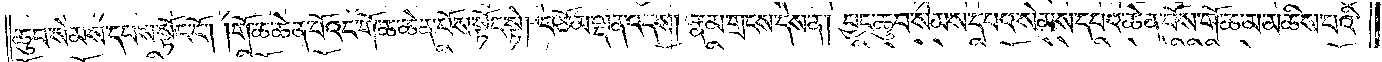ཆུབ་སེམས་དཔས་སྟོང་ངོ༌། །གོ་ཆ་ཆེན་པོའང་གོ་ཆ་ཆེན་པོས་སྟོང་སྟེ། བཅོམ་ལྡན་འདས། རྣམ་གྲངས་དེས་ན། བྱང་ཆུབ་སེམས་དཔའ་སེམས་དཔའ་ཆེན་པོས་གོ་ཆ་མ་མཆིས་པའི་
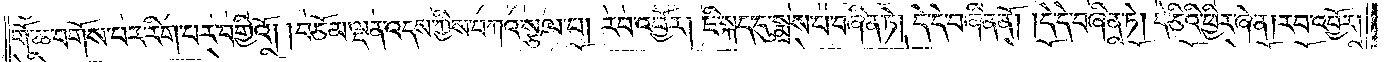གོ་ཆ་བགོས་པར་རིག་པར་བགྱིའོ། །བཅོམ་ལྡན་འདས་ཀྱིས་བཀའ་སྩལ་པ། རབ་འབྱོར། ཇི་སྐད་དུ་སྨས་པ་བཞིན་ཏེ། དེ་དེ་བཞིན་ནོ། །དེ་དེ་བཞིན་ཏེ། དེ་ཅིའི་ཕྱིར་ཞེ་ན། རབ་འབྱོར།
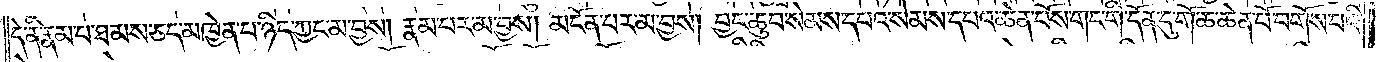དེ་ནི་རྣམ་པ་ཐམས་ཅད་མཁྱེན་པ་ཉིད་ཀྱང་མ་བྱས། རྣམ་པར་མ་བྱས། མངོན་པར་མ་བྱས། བྱང་ཆུབ་སེམས་དཔའ་སེམས་དཔའ་ཆེན་པོས་གང་གི་དོན་དུ་གོ་ཆ་ཆེན་པོ་བགོས་པའི་
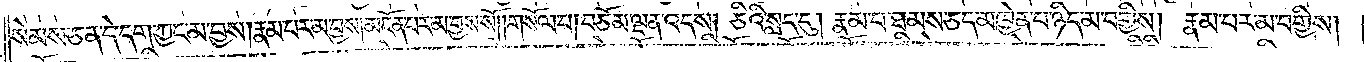སེམས་ཅན་དེ་དག་ཀྱང་མ་བྱས། རྣམ་པར་མ་བྱས་མངོན་པར་མ་བྱས་སོ། །གསོལ་པ། བཅོམ་ལྡན་འདས། ཅིའི་སླད་དུ། རྣམ་པ་ཐམས་ཅད་མཁྱེན་པ་ཉིད་མ་བགྱིས། རྣམ་པར་མ་བགྱིས།
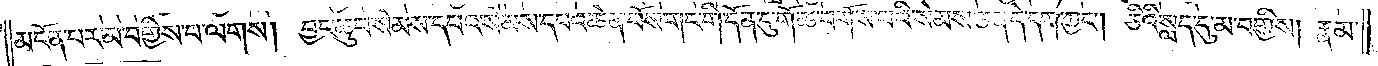མངོན་པར་མ་བགྱིས་པ་ལགས། བྱང་ཆུབ་སེམས་དཔའ་སེམས་དཔའ་ཆེན་པོས་གང་གི་དོན་དུ་གོ་ཆ་བགོས་པའི་སེམས་ཅན་དེ་དག་ཀྱང༌། ཅིའི་སླད་དུ་མ་བགྱིས། རྣམ་
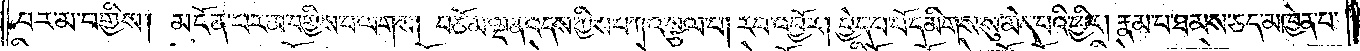པར་མ་བགྱིས། མངོན་པར་མ་བགྱིས་པ་ལགས། བཅོམ་ལྡན་འདས་ཀྱིས་བཀའ་སྩལ་པ། རབ་འབྱོར། བྱེད་པ་དམིགས་སུ་མེད་པའི་ཕྱིར། རྣམ་པ་ཐམས་ཅད་མཁྱེན་པ་
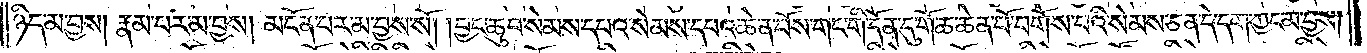ཉིད་མ་བྱས། རྣམ་པར་མ་བྱས། མངོན་པར་མ་བྱས་སོ། །བྱང་ཆུབ་སེམས་དཔའ་སེམས་དཔའ་ཆེན་པོས་གང་གི་དོན་དུ་གོ་ཆ་ཆེན་པོ་བགོས་པའི་སེམས་ཅན་དེ་དག་ཀྱང་མ་བྱས།
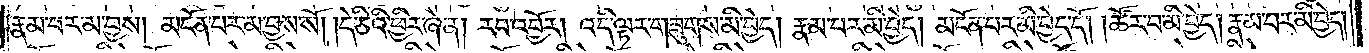རྣམ་པར་མ་བྱས། མངོན་པར་མ་བྱས་སོ། །དེ་ཅིའི་ཕྱིར་ཞེ་ན། རབ་འབྱོར། འདི་ལྟར་གཟུགས་མི་བྱེད། རྣམ་པར་མི་བྱེད། མངོན་པར་མི་བྱེད་དོ། །ཚོར་བ་མི་བྱེད། རྣམ་པར་མི་བྱེད།
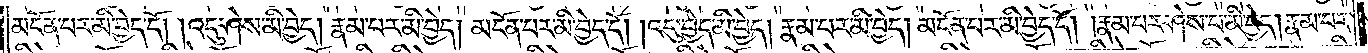མངོན་པར་མི་བྱེད་དོ། །འདུ་ཤེས་མི་བྱེད། རྣམ་པར་མི་བྱེད། མངོན་པར་མི་བྱེད་དོ། །འདུ་བྱེད་མི་བྱེད། རྣམ་པར་མི་བྱེད། མངོན་པར་མི་བྱེད་དོ། །རྣམ་པར་ཤེས་པ་མི་བྱེད། རྣམ་པར་
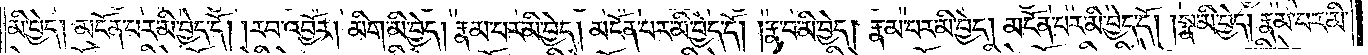མི་བྱེད། མངོན་པར་མི་བྱེད་དོ། །རབ་འབྱོར། མིག་མི་བྱེད། རྣམ་པར་མི་བྱེད། མངོན་པར་མི་བྱེད་དོ། །རྣ་བ་མི་བྱེད། རྣམ་པར་མི་བྱེད། མངོན་པར་མི་བྱེད་དོ། །སྣ་མི་བྱེད། རྣམ་པར་མི་
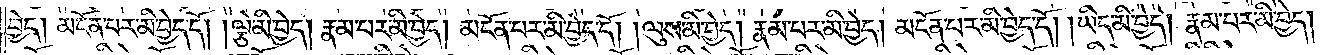བྱེད། མངོན་པར་མི་བྱེད་དོ། །ལྕེ་མི་བྱེད། རྣམ་པར་མི་བྱེད། མངོན་པར་མི་བྱེད་དོ། ལུས་མི་བྱེད། རྣམ་པར་མི་བྱེད། མངོན་པར་མི་བྱེད་དོ། །ཡིད་མི་བྱེད། རྣམ་པར་མི་བྱེད།
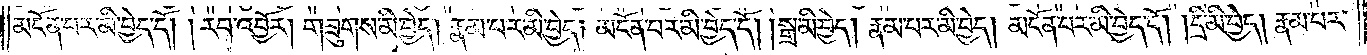མངོན་པར་མི་བྱེད་དོ། །རབ་འབྱོར། གཟུགས་མི་བྱེད། རྣམ་པར་མི་བྱེད། མངོན་པར་མི་བྱེད་དོ། །སྒྲ་མི་བྱེད། རྣམ་པར་མི་བྱེད། མངོན་པར་མི་བྱེད་དོ། །དྲི་མི་བྱེད། རྣམ་པར་
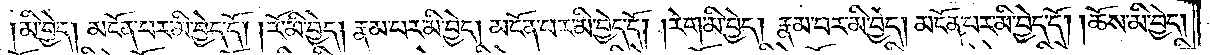མི་བྱེད། མངོན་པར་མི་བྱེད་དོ། །རོ་མི་བྱེད། རྣམ་པར་མི་བྱེད། མངོན་པར་མི་བྱད་དོ། །རེག་མི་བྱེད། རྣམ་པར་མི་བྱེད། མངོན་པར་མི་བྱེད་དོ། །ཆོས་མི་བྱེད།
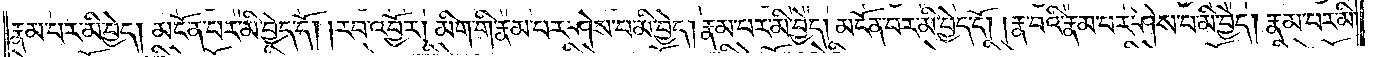རྣམ་པར་མི་བྱེད། མངོན་པར་མི་བྱེད་དོ། །རབ་འབྱོར། མིག་གི་རྣམ་པར་ཤེས་པ་མི་བྱེད། རྣམ་པར་མི་བྱེད། མངོན་པར་མི་བྱེད་དོ། །རྣ་བའི་རྣམ་པར་ཤེས་པ་མི་བྱེད། རྣམ་པར་མི་
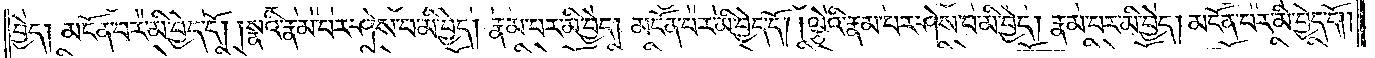བྱེད། མངོན་པར་མི་བྱེད་དོ། །སྣའི་རྣམ་པར་ཤེས་པ་མི་བྱེད། རྣམ་པར་མི་བྱེད། མངོན་པར་མི་བྱེད་དོ། །ལྕེའི་རྣམ་པར་ཤེས་པ་མི་བྱེད། རྣམ་པར་མི་བྱེད། མངོན་པར་མི་བྱེད་དོ། །
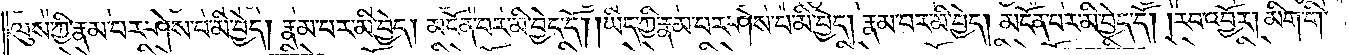ལུས་ཀྱི་རྣམ་པར་ཤེས་པ་མི་བྱེད། རྣམ་པར་མི་བྱེད། མངོན་པར་མི་བྱེད་དོ། །ཡིད་ཀྱི་རྣམ་པར་ཤེས་པ་མི་བྱེད། རྣམ་པར་མི་བྱེད། མངོན་པར་མི་བྱེད་དོ། །རབ་འབྱོར། མིག་གི་
